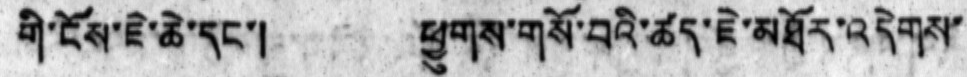གི་ངོས་ཇེ་ཆེ་དང་། ཕྱུགས་གསོ་བའི་ཚད་ཇེ་མཐོར་འདེགས་
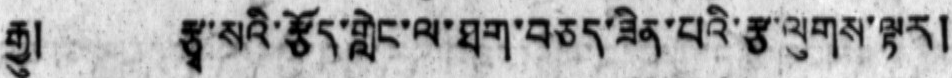རྒྱུ།   རྩྭ་སའི་རྩོད་གླེང་ལ་ཐག་བཅད་ཟིན་པའི་རྩ་ལུགས་ལྟར།
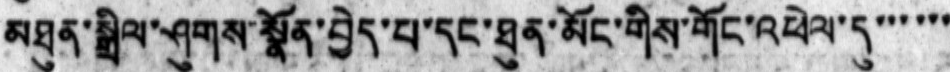མཐུན་སྒྲིལ་ཤུགས་སྣོན་བྱེད་པ་དང་ཐུན་མོང་གིས་གོང་འཕེལ་དུ་་་་་་
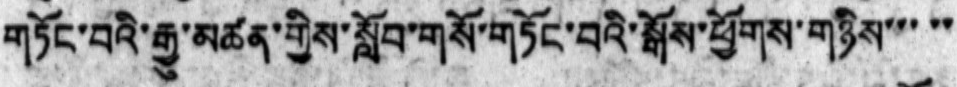གཏོང་བའི་རྒྱུ་མཚན་གྱིས་སློབ་གསོ་གཏོང་བའི་སྒོས་ཕྱོགས་གཉིས་་་་་
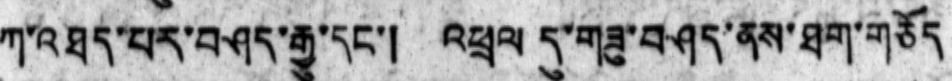ཀ་འཐད་པར་བཤད་རྒྱུ་དང་། འཕྲལ དུ་གཟུ་བཤད་ནས་ཐག་གཅོད
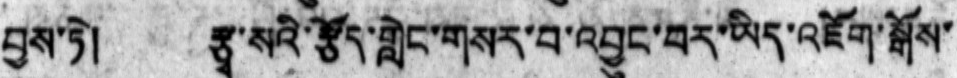བྱས་ཏེ། རྩྭ་སའི་རྩོད་གླེང་གསར་བ་འབྱུང་བར་ཡིད་འཇོག་སྒོས་
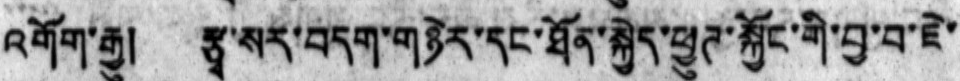འགོག་རྒྱུ། རྩྭ་སར་བདག་གཉེར་དང་ཐོན་སྐྱེད་ཕྱུཊ་སྐྱོང་གི་བྱ་བ་ཇེ་
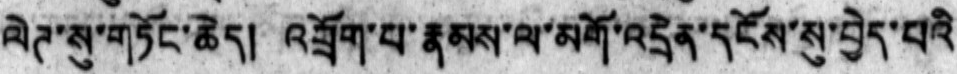ལེཊ་སུ་གཏོང་ཆེད། འབྲོག་པ་རྣམས་ལ་མགོ་འདྲེན་དངོས་སུ་བྱེད་པའི
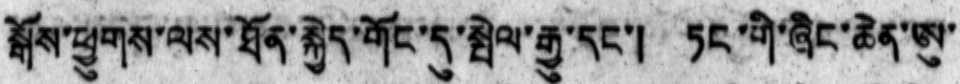སྒོས་ཕྱུགས་ལས་ཐོན་སྐྱེད་གོང་དུ་སྤེལ་རྒྱུ་དང་། ཏང་གི་ཞིང་ཆེན་ཨུ་
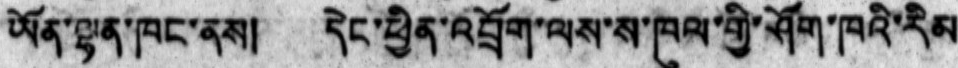ཡོན་ལྷན་ཁང་ནས།  དེང་ཕྱིན་འབྲོག་ལས་ས་ཁུལ་གྱི་ཤོག་ཁའི་རིམ
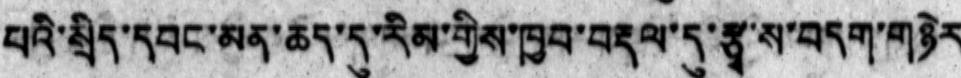པའི་སྲིད་དབང་མན་ཆད་དུ་རིམ་གྱིས་ཁྱབ་བརྡལ་དུ་རྩྭ་ས་བདག་གཉེར
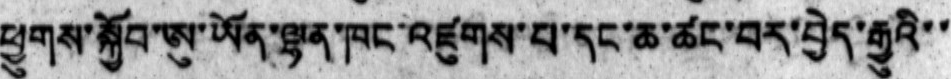ཕྱུགས་སྐྱོབ་ཨུ་ཡོན་ལྷན་ཁང་འཛུགས་པ་དང་ཆ་ཚང་བར་བྱེད་རྒྱུའི་་
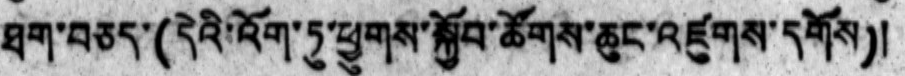ཐག་བཅད་(དེའི་འོག་ཏུ་ཕྱུགས་སྐྱོབ་ཚོགས་ཆུང་འཛུགས་དགོས)།
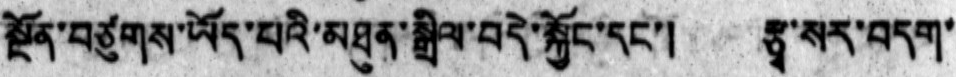སྔོན་བཙུགས་ཡོད་པའི་མཐུན་སྒྲིལ་བདེ་སྐྱོང་དང་། རྩྭ་སར་བདག་
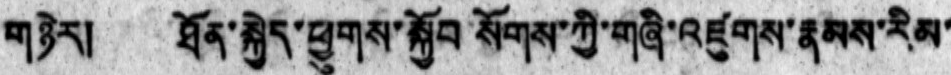གཉེར། ཐོན་སྐྱེད་ཕྱུགས་སྐྱོབ སོགས་ཀྱི་གཞི་འཛུགས་རྣམས་རིམ་
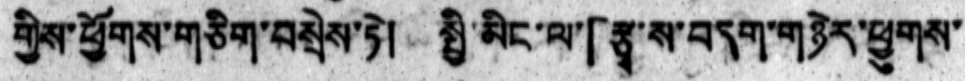གྱིས་ཕྱོགས་གཅིག་བསྲེས་ཏེ། སྤྱི་མིང་ལ་「རྩྭ་ས་བདག་གཉེར་ཕྱུགས་
